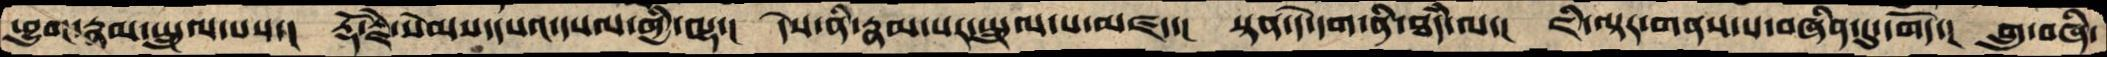ཕྱུག་རྣམ་སྤྲུལ་པས་།  རྡོ་རྗེ་སེམས་དཔའ་དཔལ་གྱི་ལྷ་།  དེས་ནི་རྣམ་པར་སྤྲུལ་པ་མཛད་།  སྟན་དེ་དག་ནི་ཐཾད་ལ་།  ཇི་ལྟར་གནས་པ་བཞིན་དུ་དགོད་།  གྲུ་བཞི་
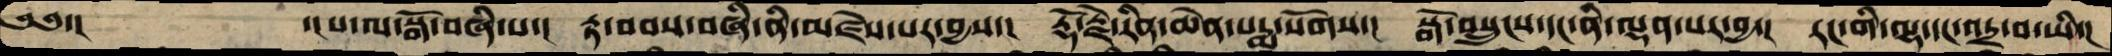༄༅་།         ་།པ་ལ་སྒོ་བཞི་པ་།   རྟ་བབས་བཞི་ནི་མཛེས་པར་བྱས་།   རྡོ་རྗེ་རིན་ཆེན་པདྨ་སོགས་།   སྒོ་བསྲུངས་དང་ནི་ལྡན་པར་བྱ་།   རང་གི་ལྷ་དང་འདྲ་བ་ཡི་།
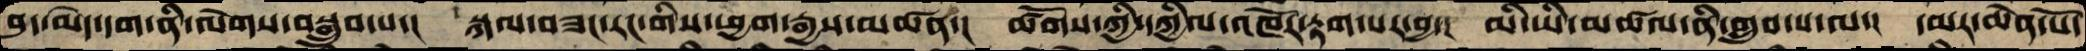བུད་མེད་དག་ནི་ལེགས་བསྒྲུབ་པ་།   སྐལ་བཟང་རང་གིས་ཕྱག་རྒྱས་མཚན་།   ཚོགས་ཀྱི་དཀྱིལ་འཁོར་རྟག་པར་བྱ་།  མི་ཡི་མཚལ་ནི་གྲུབ་པ་ལ་།  དམར་ཆེན་པོ་
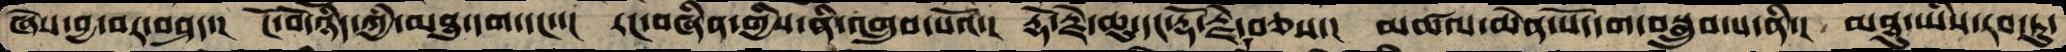ཞེས་བྱ་བར་བཤད་།   ངོ་བོ་ཉིད་ཀྱི་མཐུ་དག་དང་་།   རང་བཞིན་གྱིས་ནི་འགྲུབ་པའོ་།   རྡོ་རྗེ་ཆུ་དང་རྡོ་རྗེ་བཅས་།   མཚལ་ཆེན་པོ་དག་བསྒྲུབ་པ་ནི་།  མཐུ་ཡིས་རབ་ཏུ་
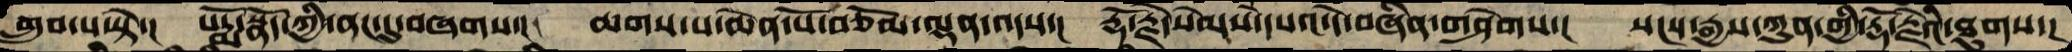གྲུབ་པ་སྟེ་།  པདྨོ་སྣོད་ཀྱི་ནང་དུ་བཞགས་།   ཆགས་པ་ཆེན་པོ་བཅོམ་ལྡན་འདས་།   རྡོ་རྗེ་སེམས་དཔའ་དེ་བཞིན་གཤེགས་།   སངས་རྒྱས་ཀུན་གྱི་རྡོ་རྗེའི་ཐུགས་།
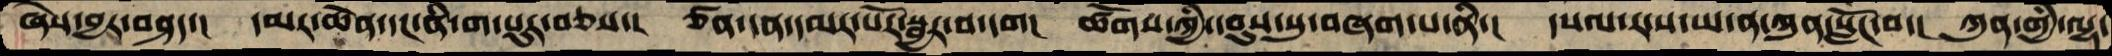ཞེས་བྱར་བཤད་།   དམར་ཆེན་དང་ནི་ག་པུར་བཅས་།  ཙན་དན་དམར་པོར་སྦྱོར་བ་དག།  ཚོགས་ཀྱི་དབུས་སུ་བཞག་པ་ནི་།  དཔལ་ར་ས་ཡ་ན་ཀུན་སློང་བ་།  ཀུན་གྱི་ལྷ་
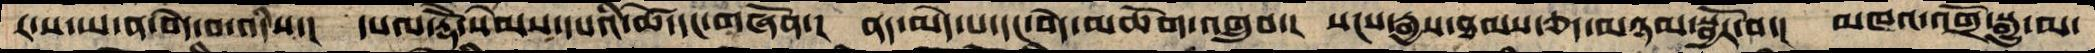ར་ས་ཡ་ན་བདེ་བ་འདིས་།  དཔལ་རྡོེ་སེམས་དཔའི་ཚེ་དང་གཞོན་།  ནད་མེད་པ་དང་བདེ་མཆོག་འགྲུབ་།  སངས་རྒྱས་ཐམས་ཅད་མཉམ་སྦྱོར་བ་།  མཁའ་འགྲོ་སྒྱུ་མ་
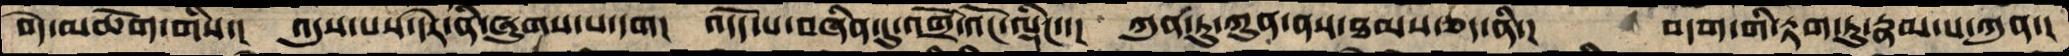བདེ་མཆོག་གིས་།  འདུས་པས་དེར་ནི་ཞུགས་པ་དག།  འདོད་པ་བཞིན་དུ་འགྲོ་འོང་ལྡིང་་།  ཀུན་ཏུ་ཀུན་ནས་ཐམས་ཅད་ནི་།   བདག་གི་རྟག་ཏུ་རྣམ་པ་ཀུན་།
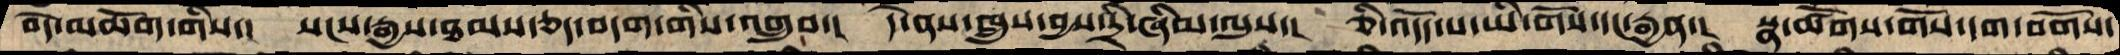བདེ་མཆོག་གིས་།  སངས་རྒྱས་ཐམས་ཅད་བདག་གིས་འགྲུབ་།  དེ་ནས་ཁྲུས་བྱས་དྲི་ཞིམ་ལུས་།  ཅི་འདོད་པ་ཡི་གོས་དང་རྒྱན་།  སྣ་ཚོགས་གོས་དག་བགོས་
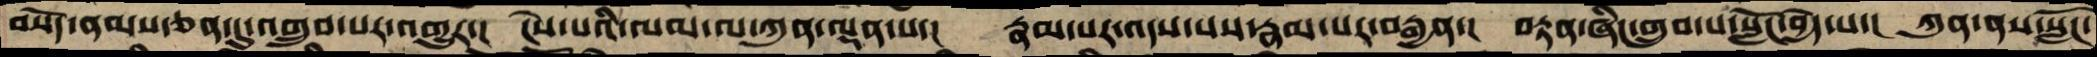བསོད་ནམས་ཅན་དུ་འགྲུབ་པར་འགྱུར་།  ངེས་པའི་ལམ་ལ་ཀུན་ལྡན་པ་།  རྣམ་པར་འདས་པས་རྣམ་པར་བརྒྱན་།  བརྟན་ཞིང་གྲུབ་པ་སློང་བྱེད་པ་།  ཀུན་ནས་སློང་
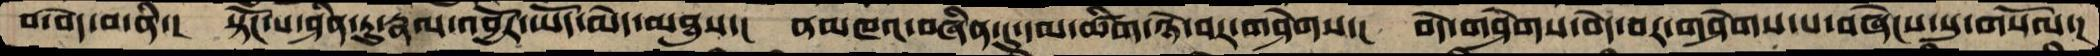བ་བདེ་བ་ནི་།  སྟོང་པ་ཤིན་ཏུ་རྣལ་འབྱོར་ཡོད་མེད་མཐུས་།  ནམཁའ་བཞིན་དུ་དམ་ཚིག་ཉེ་བར་གཤེགས་།  བདེ་གཤེགས་བདེ་བར་གཤེགས་པ་བཞེངས་སུ་གསོལ་།
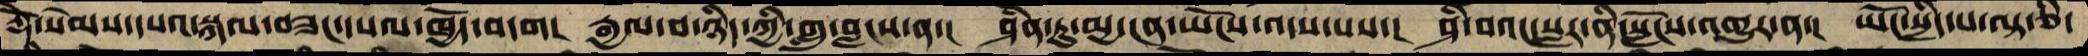རྡོེ་སེམས་དཔའ་སྐལ་བཟང་དཔལ་ཁྱོད་བདག།  རྒྱ་བ་ཉིད་ཀྱི་གླུ་བླངས་ན་།  ཤིན་ཏུ་མྱ་ངན་ཡོངས་འདས་པས་།  ཤི་བའང་སླར་ནི་སློངས་འགྱུར་ན་།   ཡོང་སྲིད་པ་ལྟ་ཅི་
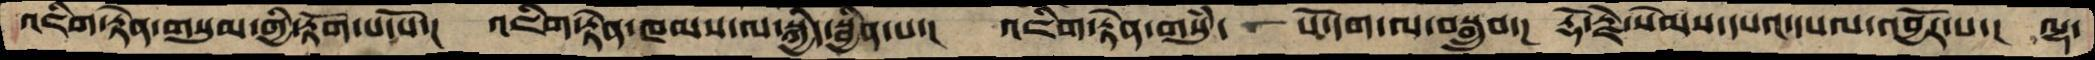འཇིག་རྟེན་གསུམ་གྱི་རྟོག་པ་པོ་།  འཇིག་རྟེན་ཁམས་ལ་སྐྱིད་སྦྱིན་པ་།  འཇིག་རྟེན་གསུཾ་   པོ་དག་ལ་བསྒྲུབ་།  རྡོ་རྗེ་སེམས་དཔའ་དཔལ་འབྱོར་པ་།  ལྷ་
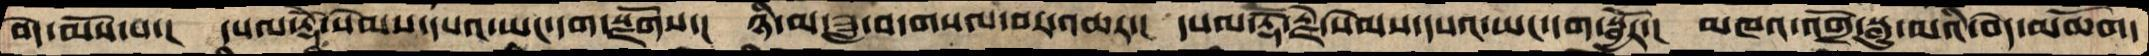བདེ་མོས་པ་།  དཔལ་རྡོེ་སེམས་དཔའ་ཡང་དག་སྫོགས་།  ཉི་མ་ཟླ་བ་གསལ་བར་འཆར་།  དཔལ་རྡོ་རྗེ་སེམས་དཔའ་ཡང་དག་སྦྱོར་།  མཁའ་འགྲོ་སྒྱུ་མའི་བདེ་མཆོག་
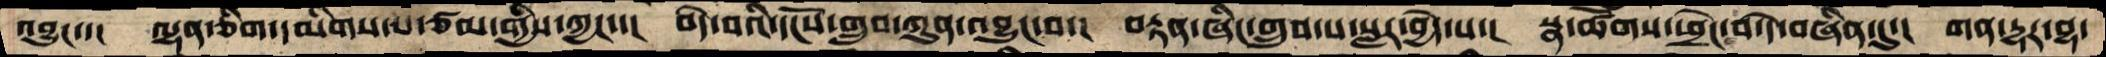འབྱུང་་།  ལྷན་ཅིག་དམིགས་པ་ཙམ་གྱིས་ཀྱང་་།  བདེ་བའི་དངོས་གྲུབ་ཀུན་འབྱུང་བ་།  བརྟན་ཞིང་གྲུབ་པ་སླར་བྱེད་པ་།  སྣ་ཚོགས་ཕྲེང་བ་དེ་བཞིན་དུ་།  གན་དྷར་བྷ་
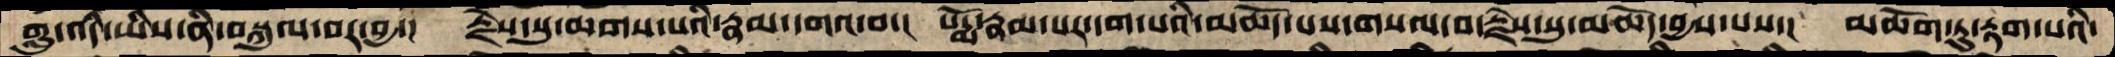གླུ་འདི་ཡིས་ནི་བསྐུལ་བར་བྱ་།  རྗེས་སུ་ཆགས་པའི་རྣམ་དགའ་བ་།  པདྨོ་རྣམ་པར་དག་པའི་མཆོད་པས་གསལ་བ་རྗེས་སུ་མཆོད་བྱས་པས་།  མཆོག་ཏུ་རྟག་པའི་
